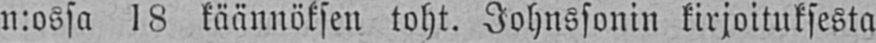n:ossa 18 käännöksen toht. Johnssonin kirjoituksesta
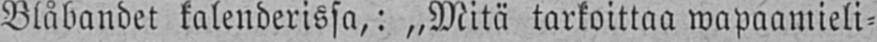Blåbandet kalenderissa,: „Mitä tarkoittaa wapaamieli-
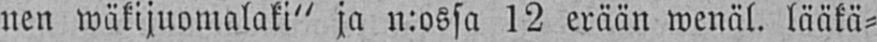nen wäkijuomalaki" ja n:ossa 12 erään wenäl. lääkä-
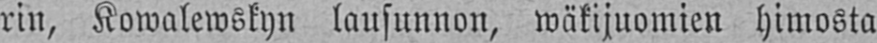rin, Kowalewskyn lausunnon, wäkijuomien himosta
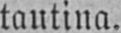tautina.
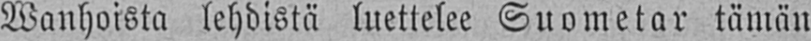Wanhoista lehdistä luettelee Suometar tämän
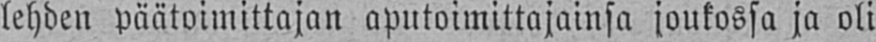lehden päätoimittajan aputoimittajainsa joukossa ja oli
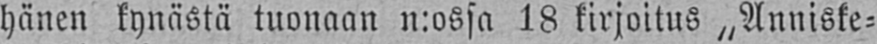hänen kynästä tuonaan n:ossa 18 kirjoitus „Anniske-
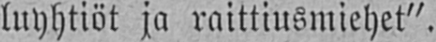luyhtiöt ja raittiusmiehet".
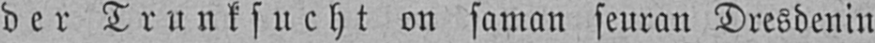der Trunksucht on saman seuran Dresdenin
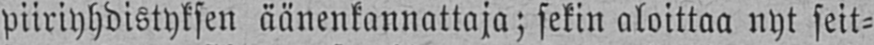piiriyhdistyksen äänenkannattaja; sekin aloittaa nyt seit-
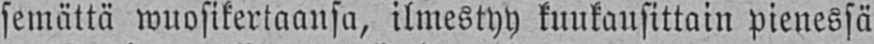semättä wuosikertaansa, ilmestyy kuukausittain pienessä
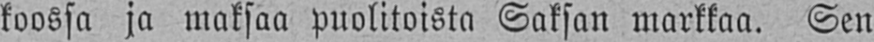koossa ja maksaa puolitoista Saksan markkaa. Sen
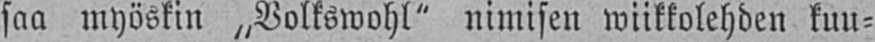saa myöskin „Volkswohl" nimisen wiikkolehden kuu-
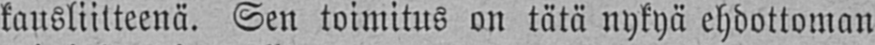kausliitteenä. Sen toimitus on tätä nykyä ehdottoman
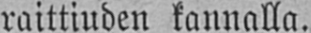raittiuden kannalla.
